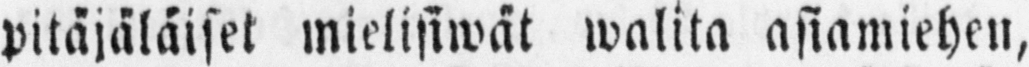pitäjäläiset mielisiwät walita asiamiehen,
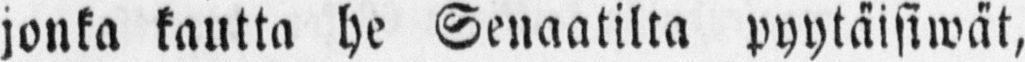jonka kautta he Senaatilta pyytäisiwät,
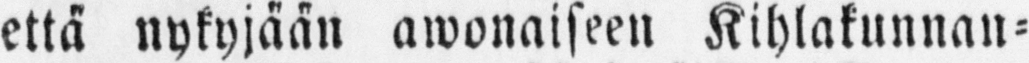että nykyjään awonaiseen Kihlakunnan-
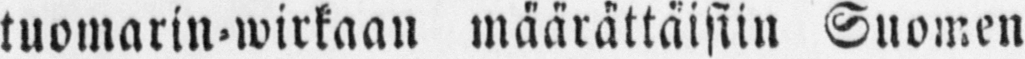tuomarin-wirkaan määrättäisiin Suomen
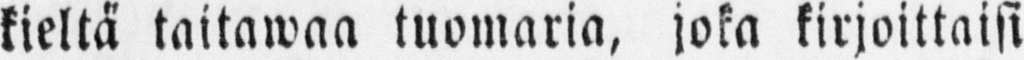kieltä taitawaa tuomaria, joka kirjoittaisi
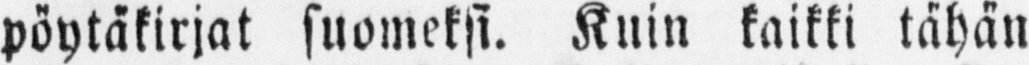pöytäkirjat suomeksi. Kuin kaikki tähän
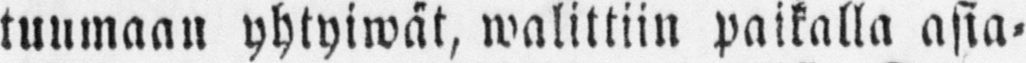tuumaan yhtyiwät, walittiin paikalla asia-
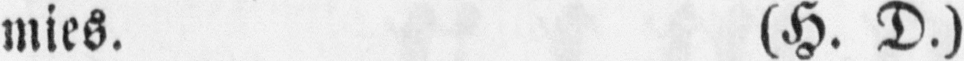mies. (H. D.)
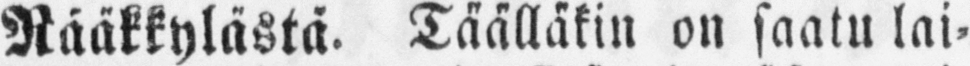Rääkkylästä. Täälläkin on saatu lai-
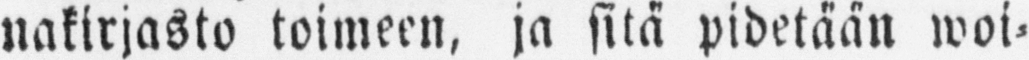nakirjasto toimeen, ja sitä pidetään woi-
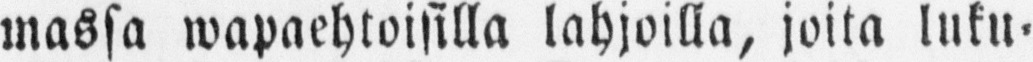massa wapaehtoisilla lahjoilla, joita luku-
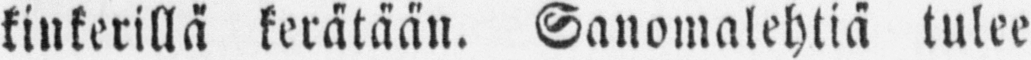kinkerillä kerätään. Sanomalehtiä tulee
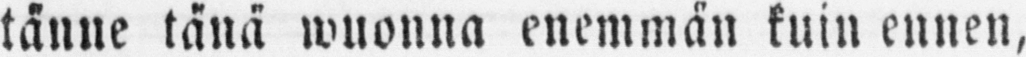tänne tänä wuonna enemmän kuin ennen,
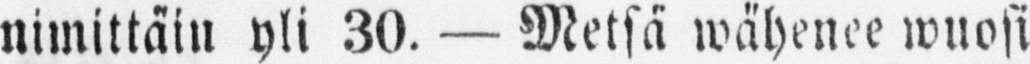nimittäin yli 30. — Metsä wähenee wuosi
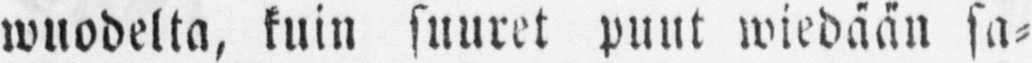wuodelta, kuin suuret puut wiedään sa-
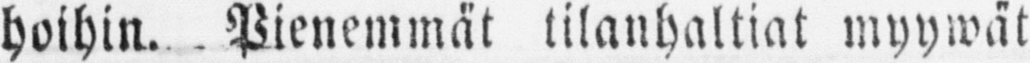hoihin. Pienemmät tilanhaltiat myywät
